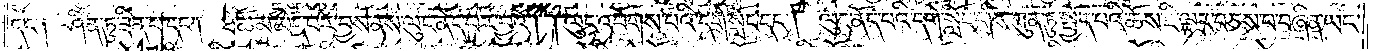དང་༑ ཤིན་ཏུ་ཟིན་པ་དང༌། ཐེ་ཚོམ་མེད་པར་བྱས་ནས་ལུང་ནོད་པར་བྱའོ། །ལུང་འབོགས་པའི་དགེ་སློང་དང༌། ལུང་ནོད་པའི་དགེ་སློང་གིས་ཀུན་ཏུ་སྤྱོད་པའི་ཆོས་ཇི་ལྟར་བཅས་པ་བཞིན་ཡང་
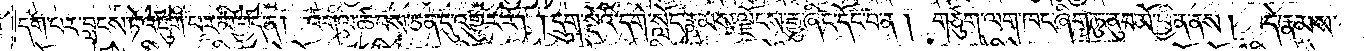དག་པར་བླངས་ཏེ་འཇུག་པར་མི་བྱེད་ན། འགལ་ཚབས་ཅན་དུ་འགྱུར་རོ། །དྲུག་སྡེའི་དགེ་སློང་རྣམས་ལྗོངས་རྒྱུ་ཞིང་དོང་བ་ན། གཙུག་ལག་ཁང་ཞིག་ཏུ་ནུབ་མོ་ཕྱིན་ནས། དེ་རྣམས་
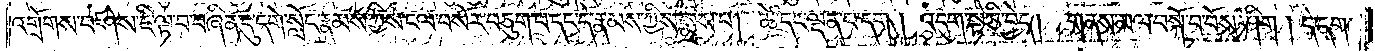འགྲོགས་བཤེས་ཇི་ལྟ་བ་བཞིན་དུ་དགེ་སློང་རྣམས་ཀྱིས་ངལ་བསོར་བཅུག་པ་དང་དེ་རྣམས་ཀྱིས་སྨྲས་པ། ཚེ་དང་ལྡན་པ་དག། འདུག་སྟེ་ཅི་བྱེད། གནས་མལ་བསྐོ་བ་བྱོས་ཤིག། དེ་དག་
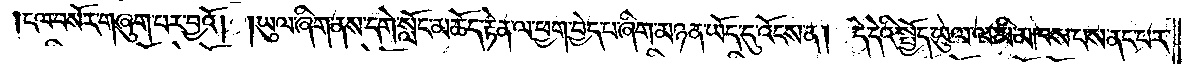།ངལ་བསོར་གཞུག་པར་བྱའོ། །ཡུལ་ཞིག་ནས་དགེ་སློང་མཆོད་རྟེན་ལ་ཕྱག་བྱེད་པ་ཞིག་མཉན་ཡོད་དུ་འོངས་ན། དེ་དེའི་སྤྱོད་ཡུལ་ལ་མི་མཁས་པས་ནང་པར་
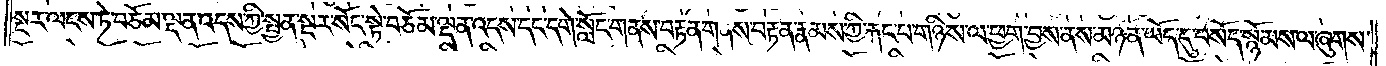སྔར་ལངས་ཏེ་བཅོམ་ལྡན་འདས་ཀྱི་སྤྱན་སྔར་སོང་སྟེ་བཅོམ་ལྡན་འདས་དང་དགེ་སློང་གནས་བརྟན་གནས་བརྟན་རྣམས་ཀྱི་རྐང་པ་གཉིས་ལ་ཕྱག་བྱས་ནས་མཉན་ཡོད་དུ་བསོད་སྙོམས་ལ་ཞུགས་
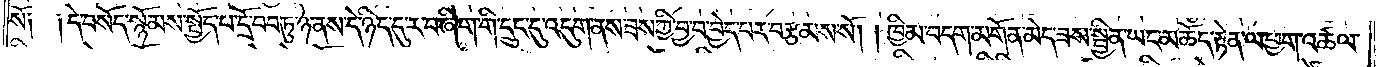སོ༑ ༑དེ་བསོད་སྙོམས་སྤྱོད་པ་དྲོ་བབ་ཏུ་ཉེ་ནས་དེ་ཉིད་དུ་ར་བ་ཞིག་གི་དྲུང་དུ་འདུག་ནས་ཟས་ཀྱི་བྱ་བ་བྱེད་པར་བརྩམས་སོ། །ཁྱིམ་བདག་མགོན་མེད་ཟས་སྦྱིན་ཡང་མཆོད་རྟེན་ལ་ཕྱག་འཚལ་
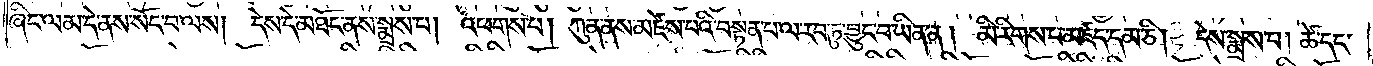ཞིང་ལམ་དེ་ནས་སོང་བ་ལས། དེས་དེ་མཐོང་ནས་སྨྲས་པ། འཕགས་པ། ཀུན་ནས་མཛེས་པའི་བསྟན་པ་ལ་རབ་ཏུ་བྱུང་བ་ཡིན་ན། མི་རིགས་པ་མཛད་དམ་ཅི། དེས་སྨྲས་པ། ཚེ་དང་
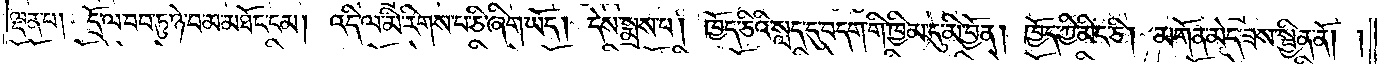ལྡན་པ། དྲོ་ལ་བབ་ཏུ་ཉེ་བ་མ་མཐོང་ངམ། འདི་ལ་མི་རིགས་པ་ཅི་ཞིག་ཡོད། དེས་སྨྲས་པ། ཁྱོད་ཅིའི་སླད་དུ་བདག་གི་ཁྱིམ་དུ་མི་བྱོན། ཁྱོད་ཀྱི་མིང་ཅི། མགོན་མེད་ཟས་སྦྱིན་ནོ། །
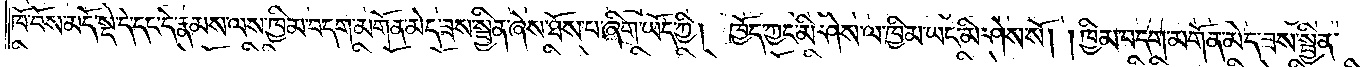ཁོ་བོས་མདོ་སྡེ་དེ་དང་དེ་རྣམས་ལས་ཁྱིམ་བདག་མགོན་མེད་ཟས་སྦྱིན་ཞེས་ཐོས་པ་ཞིག་ཡོད་ཀྱི། ཁྱོད་ཀྱང་མི་ཤེས་ལ་ཁྱིམ་ཡང་མི་ཤེས་སོ། །ཁྱིམ་བདག་མགོན་མེད་ཟས་སྦྱིན་
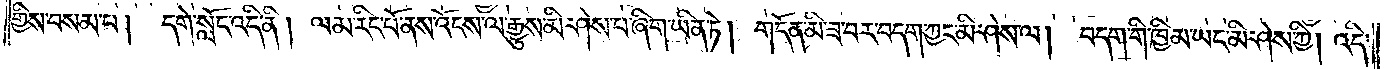གྱིས་བསམ་པ། དགེ་སློང་འདི་ནི། ལམ་རིང་པོ་ནས་འོངས་ལ་རྒྱུས་མི་ཤེས་པ་ཞིག་ཡིན་ཏེ། གདོན་མི་ཟ་བར་བདག་ཀྱང་མི་ཤེས་ལ། བདག་གི་ཁྱིམ་ཡང་མི་ཤེས་ཀྱི། འདི་
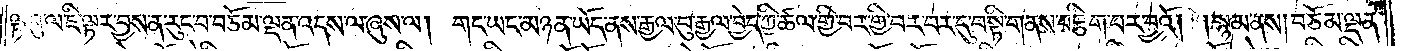ལྟ་བུ་ལ་ཇི་ལྟར་བྱས་ན་རུང་བ་བཅོམ་ལྡན་འདས་ལ་ཞུས་ལ། གང་ཡང་མཉན་ཡོད་ནས་རྒྱལ་བུ་རྒྱལ་བྱེད་ཀྱི་ཚལ་གྱི་བར་གྱི་བར་བར་དུ་བསྟི་གནས་བརྩིག་པར་བྱའོ། །སྙམ་ནས། བཅོམ་ལྡན་
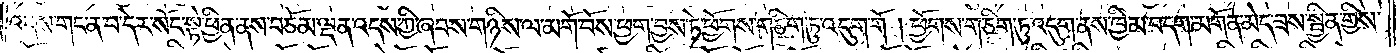འདས་གང་ན་བ་དེར་སོང་སྟེ་ཕྱིན་ནས་བཅོམ་ལྡན་འདས་ཀྱི་ཞབས་གཉིས་ལ་མགོ་བོས་ཕྱག་བྱས་ཏེ་ཕྱོགས་གཅིག་ཏུ་འདུག་གོ །ཕྱོགས་གཅིག་ཏུ་འདུག་ནས་ཁྱིམ་བདག་མགོན་མེད་ཟས་སྦྱིན་གྱིས་
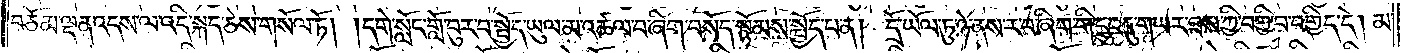བཅོམ་ལྡན་འདས་ལ་འདི་སྐད་ཅེས་གསོལ་ཏོ། །དགེ་སློང་གློ་བུར་བ་སྤྱོད་ཡུལ་མ་འཚལ་བ་ཞིག་བསོད་སྙོམས་སྤྱོད་པ་ན། དྲོ་ཡོལ་ཏུ་ཉེ་ནས་ར་བ་ཞིག་གི་དྲུང་དུ་གཡར་ཟས་ཀྱི་བགྱི་བ་བགྱིད་དེ། མ་
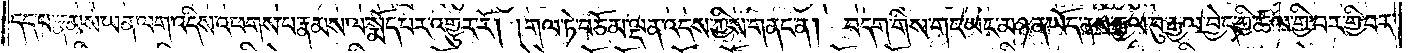དད་པ་རྣམས་ཡན་ལག་འདིས་འཕགས་པ་རྣམས་ལ་སྨོད་པར་འགྱུར་རོ། །གལ་ཏེ་བཅོམ་ལྡན་འདས་ཀྱིས་གནང་ན། བདག་གིས་གང་ཡང་མཉན་ཡོད་ནས་རྒྱལ་བུ་རྒྱལ་བྱེད་ཀྱི་ཚལ་གྱི་བར་གྱི་བར་
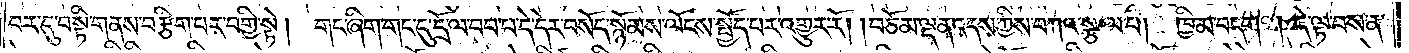བར་དུ་བསྟི་གནས་བརྩིག་པར་བགྱི་སྟེ། གང་ཞིག་གང་དུ་དྲོ་ལ་བབ་པ་དེ་དེར་བསོད་སྙོམས་ལོངས་སྤྱོད་པར་འགྱུར་རོ། །བཅོམ་ལྡན་འདས་ཀྱིས་བཀའ་སྩལ་པ། ཁྱིམ་བདག །དེ་ལྟ་བས་ན་
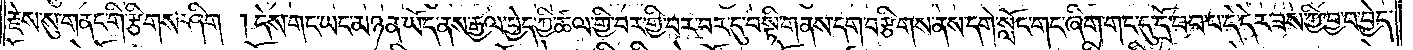རྗེས་སུ་གནང་གི་རྩིགས་ཤིག །དེས་གང་ཡང་མཉན་ཡོད་ནས་རྒྱལ་བྱེད་ཀྱི་ཚལ་གྱི་བར་གྱི་བར་བར་དུ་བསྟི་གནས་དག་བརྩིགས་ནས་དགེ་སློང་གང་ཞིག་གང་དུ་དྲོ་བབ་པ་དེ་དེར་ཟས་ཀྱི་བྱ་བ་བྱེད་
